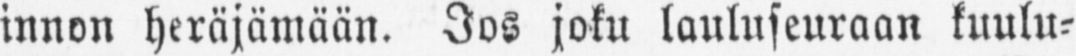innon heräjämään. Jos joku lauluseuraan kuulu-
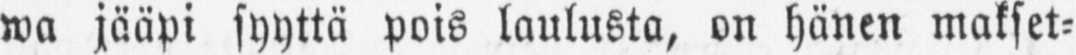wa jääpi syyttä pois laulusta, on hänen makset-
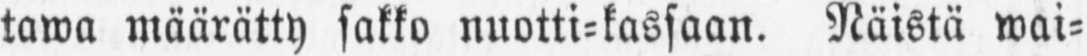tawa määrätty sakko nuotti-kassaan. Näistä wai-
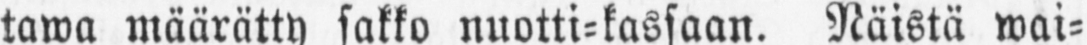woista hänelle harras kiitos. — Täällä on ruwettu
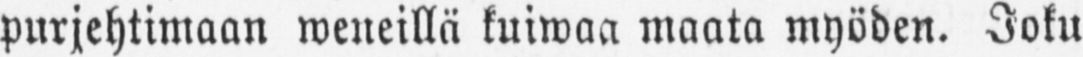purjehtimaan weneillä kuiwaa maata myöden. Joku
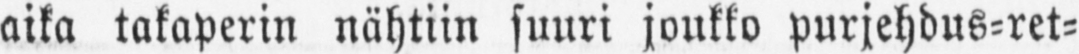aika takaperin nähtiin suuri joukko purjehdus-ret-
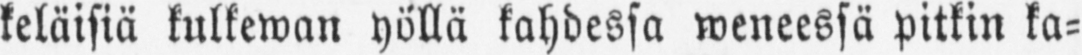keläisiä kulkewan yöllä kahdessa weneessä pitkin ka-
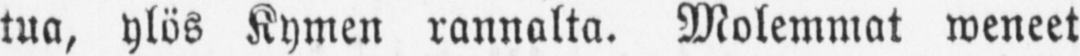tua, ylös Kymen rannalta. Molemmat weneet
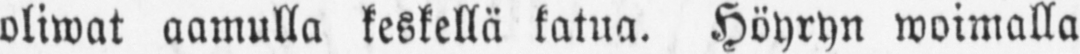oliwat aamulla keskellä katua. Höyryn woimalla
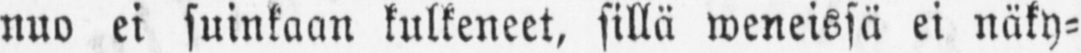nuo ei suinkaan kulkeneet, sillä weneissä ei näky-
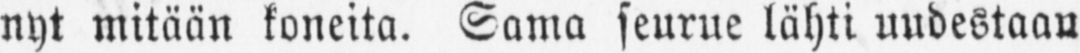nyt mitään koneita. Sama seurue lähti uudestaan
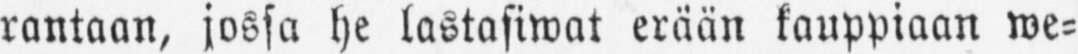rantaan, jossa he lastasiwat erään kauppiaan we-
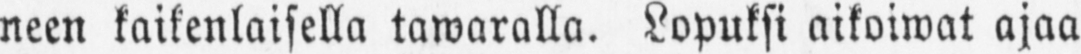neen kaikenlaisella kawaralla. Lopuksi aikoiwat ajaa
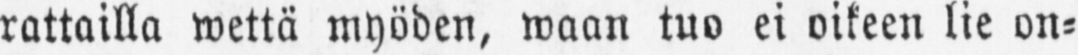rattailla wettä myöden, waan tuo ei oikeen lie on-
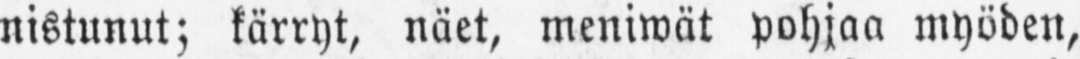nistunut; kärryt, näet, meniwät pohjaa myöden,
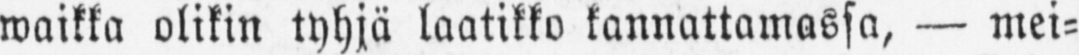waikka olikin tyhjä laatikko kannattamassa, — mei-
